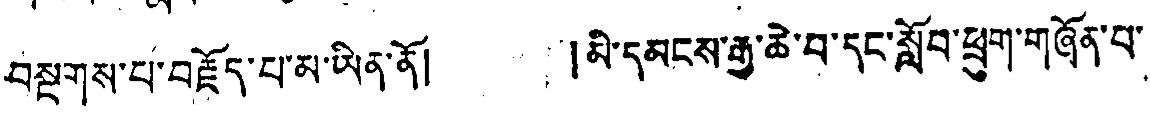བསྔགས་པ་བརྗོད་པ་མ་ཡིན་ནོ། །མི་དམངས་རྒྱ་ཆེ་བ་དང་སློབ་ཕྲུག་གཞོན་པ་
